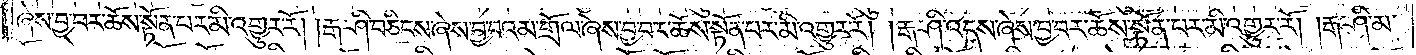ཞེས་བྱ་བར་ཆོས་སྟོན་པར་མི་འགྱུར་རོ། །རྒ་ཤི་བཅིངས་ཞེས་བྱ་བའམ་གྲོལ་ཞེས་བྱ་བར་ཆོས་སྟོན་པར་མི་འགྱུར་རོ། །རྒ་ཤི་འདས་ཞེས་བྱ་བར་ཆོས་སྟོན་པར་མི་འགྱུར་རོ། །རྒ་ཤི་མ་
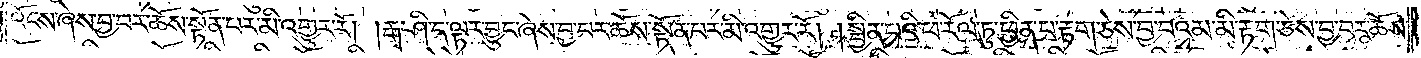འོངས་ཞེས་བྱ་བར་ཆོས་སྟོན་པར་མི་འགྱུར་རོ། །རྒ་ཤི་ད་ལྟར་བྱུང་ཞེས་བྱ་བར་ཆོས་སྟོན་པར་མི་འགྱུར་རོ། །སྦྱིན་པའི་ཕ་རོལ་ཏུ་ཕྱིན་པ་རྟག་ཅེས་བྱ་བའམ་མི་རྟག་ཅེས་བྱ་བར་ཆོས་
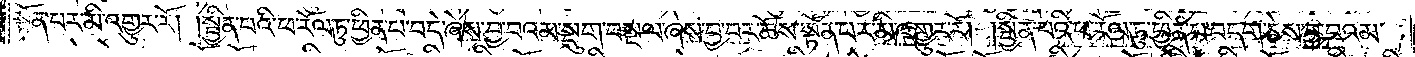སྟོན་པར་མི་འགྱུར་རོ། །སྦྱིན་པའི་ཕ་རོལ་ཏུ་ཕྱིན་པ་བདེ་ཞེས་བྱ་བའམ་སྡུག་བསྔལ་ཞེས་བྱ་བར་ཆོས་སྟོན་པར་མི་འགྱུར་རོ། །སྦྱིན་པའི་ཕ་རོལ་ཏུ་ཕྱིན་པ་བདག་ཅེས་བྱ་བའམ་
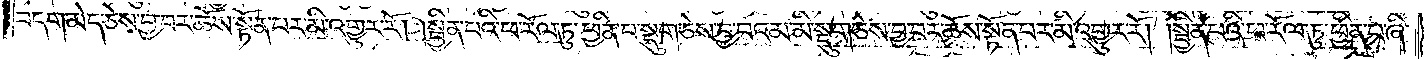བདག་མེད་ཅེས་བྱ་བར་ཆོས་སྟོན་པར་མི་འགྱུར་རོ། །སྦྱིན་པའི་ཕ་རོལ་ཏུ་ཕྱིན་པ་སྡུག་ཅེས་བྱ་བའམ་མི་སྡུག་ཅེས་བྱ་བར་ཆོས་སྟོན་པར་མི་འགྱུར་རོ། །སྦྱིན་པའི་ཕ་རོལ་ཏུ་ཕྱིན་པ་ཞི་
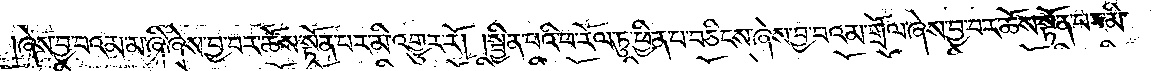ཞེས་བྱ་བའམ་མ་ཞི་ཞེས་བྱ་བར་ཆོས་སྟོན་པར་མི་འགྱུར་རོ། །སྦྱིན་པའི་ཕ་རོལ་ཏུ་ཕྱིན་པ་བཅིངས་ཞེས་བྱ་བའམ་གྲོལ་ཞེས་བྱ་བར་ཆོས་སྟོན་པར་མི་
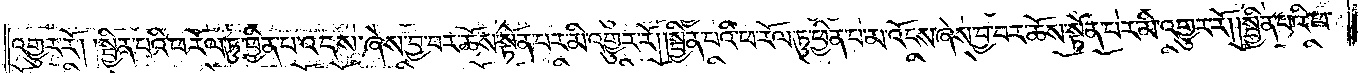འགྱུར་རོ། །སྦྱིན་པའི་ཕ་རོལ་ཏུ་ཕྱིན་པ་འདས་ཞེས་བྱ་བར་ཆོས་སྟོན་པར་མི་འགྱུར་རོ། །སྦྱིན་པའི་ཕ་རོལ་ཏུ་ཕྱིན་པ་མ་འོངས་ཞེས་བྱ་བར་ཆོས་སྟོན་པར་མི་འགྱུར་རོ། །སྦྱིན་པའི་ཕ་
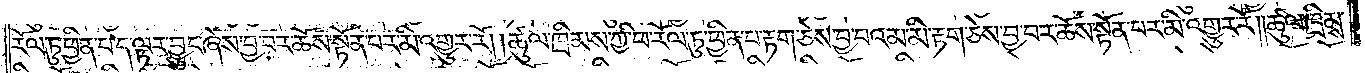རོལ་ཏུ་བྱིན་པ་ད་ལྟར་བྱུང་ཞེས་བྱ་བར་ཆོས་སྟོན་པར་མི་འགྱུར་རོ། །ཚུལ་ཁྲིམས་ཀྱི་ཕ་རོལ་ཏུ་ཕྱིན་པ་རྟག་ཅེས་བྱ་བའམ་མི་རྟག་ཅེས་བྱ་བར་ཆོས་སྟོན་པར་མི་འགྱུར་རོ། །ཚུལ་ཁྲིམས་
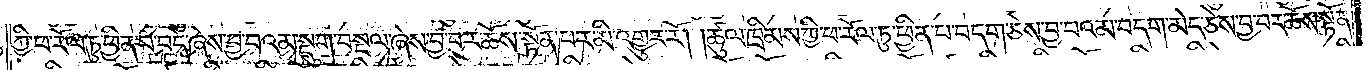ཀྱི་ཕ་རོལ་ཏུ་ཕྱིན་པ་བདེ་ཞེས་བྱ་བའམ་སྡུག་བསྔལ་ཞེས་བྱ་བར་ཆོས་སྟོན་པར་མི་འགྱུར་རོ། །ཚུལ་ཁྲིམས་ཀྱི་ཕ་རོལ་ཏུ་ཕྱིན་པ་བདག་ཅེས་བྱ་བའམ་བདག་མེད་ཅེས་བྱ་བར་ཆོས་སྟོན་
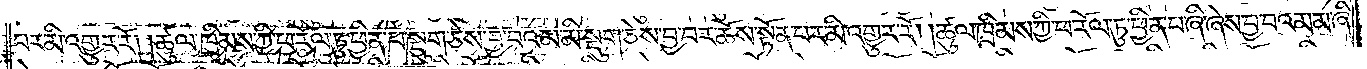པར་མི་འགྱུར་རོ། །ཚུལ་ཁྲིམས་ཀྱི་ཕ་རོལ་ཏུ་ཕྱིན་པ་སྡུག་ཅེས་བྱ་བའམ་མི་སྡུག་ཅེས་བྱ་བར་ཆོས་སྟོན་པར་མི་འགྱུར་རོ། །ཚུལ་ཁྲིམས་ཀྱི་ཕ་རོལ་ཏུ་ཕྱིན་པ་ཞི་ཞེས་བྱ་བའམ་མ་ཞི་
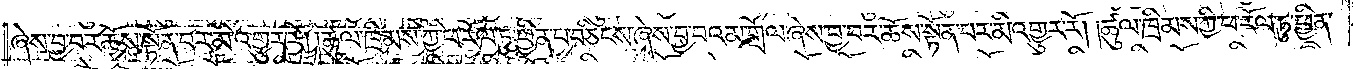ཞེས་བྱ་བར་ཆོས་སྟོན་པར་མི་འགྱུར་རོ། །ཚུལ་ཁྲིམས་ཀྱི་ཕ་རོལ་ཏུ་ཕྱིན་པ་བཅིངས་ཞེས་བྱ་བའམ་གྲོལ་ཞེས་བྱ་བར་ཆོས་སྟོན་པར་མི་འགྱུར་རོ། །ཚུལ་ཁྲིམས་ཀྱི་ཕ་རོལ་ཏུ་ཕྱིན་
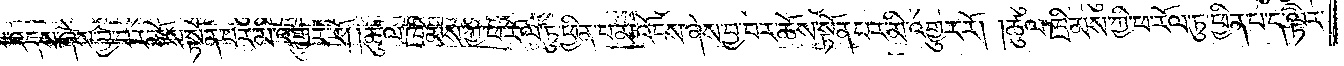པ་འདས་ཞེས་བྱ་བར་ཆོས་སྟོན་པར་མི་འགྱུར་རོ། །ཚུལ་ཁྲིམས་ཀྱི་ཕ་རོལ་ཏུ་ཕྱིན་པ་མ་འོངས་ཞེས་བྱ་བར་ཆོས་སྟོན་པར་མི་འགྱུར་རོ། །ཚུལ་ཁྲིམས་ཀྱི་ཕ་རོལ་ཏུ་ཕྱིན་པ་ད་ལྟར་
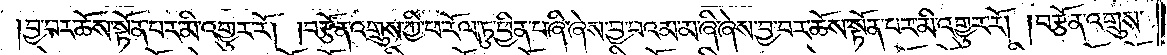བྱ་བར་ཆོས་སྟོན་པར་མི་འགྱུར་རོ། །བརྩོན་འགྲུས་ཀྱི་ཕ་རོལ་ཏུ་ཕྱིན་པ་ཞི་ཞེས་བྱ་བའམ་མ་ཞི་ཞེས་བྱ་བར་ཆོས་སྟོན་པར་མི་འགྱུར་རོ། །བརྩོན་འགྲུས་
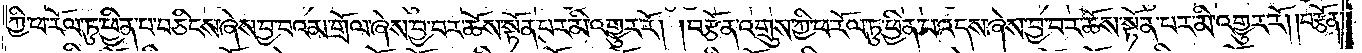ཀྱི་ཕ་རོལ་ཏུ་ཕྱིན་པ་བཅིངས་ཞེས་བྱ་བའམ་གྲོལ་ཞེས་བྱ་བར་ཆོས་སྟོན་པར་མི་འགྱུར་རོ། །བརྩོན་འགྲུས་ཀྱི་ཕ་རོལ་ཏུ་ཕྱིན་པ་འདས་ཞེས་བྱ་བར་ཆོས་སྟོན་པར་མི་འགྱུར་རོ། །བརྩོན་
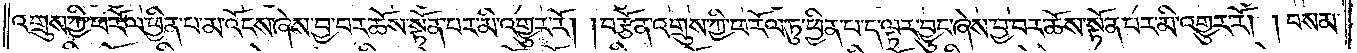འགྲུས་ཀྱི་ཕ་རོལ་ཏུ་ཕྱིན་པ་མ་འོངས་ཞེས་བྱ་བར་ཆོས་སྟོན་པར་མི་འགྱུར་རོ། །བརྩོན་འགྲུས་ཀྱི་ཕ་རོལ་ཏུ་ཕྱིན་པ་ད་ལྟར་བྱུང་ཞེས་བྱ་བར་ཆོས་སྟོན་པར་མི་འགྱུར་རོ། །བསམ་
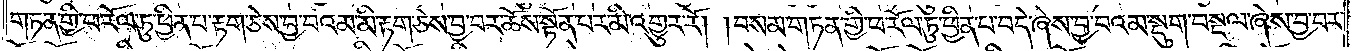གཏན་གྱི་ཕ་རོལ་ཏུ་ཕྱིན་པ་རྟག་ཅེས་བྱ་བའམ་མི་རྟག་ཅེས་བྱ་བར་ཆོས་སྟོན་པར་མི་འགྱུར་རོ། །བསམ་གཏན་གྱི་ཕ་རོལ་ཏུ་ཕྱིན་པ་བདེ་ཞེས་བྱ་བའམ་སྡུག་བསྔལ་ཞེས་བྱ་བར་
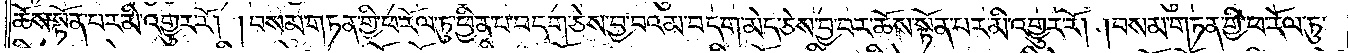ཆོས་སྟོན་པར་མི་འགྱུར་རོ། །བསམ་གཏན་གྱི་ཕ་རོལ་ཏུ་ཕྱིན་པ་བདག་ཅེས་བྱ་བའམ་བདག་མེད་ཅེས་བྱ་བར་ཆོས་སྟོན་པར་མི་འགྱུར་རོ། །བསམ་གཏན་གྱི་ཕ་རོལ་ཏུ་
